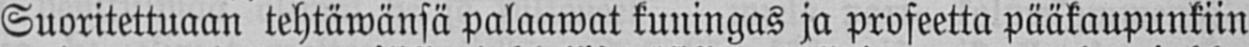Suoritettuaan tehtäwänsä palaawat kuningas ja profeetta pääkaupunkiin
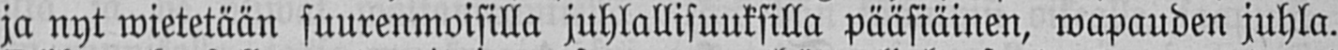ja nyt wietetään suurenmoisilla juhlallisuuksilla pääsiäinen, wapauden juhla.
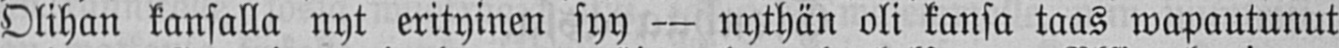Olihan kansalla nyt erityinen syy — nythän oli kansa taas wapautunut
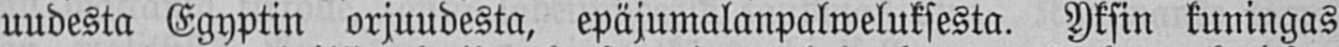uudesta Egyptin orjuudesta, epäjumalanpalweluksesta. Yksin kuningas
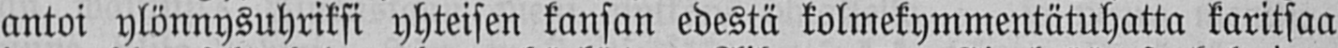antoi ylönnysuhriksi yhteisen kansan edestä kolmekymmentätuhatta karitsaa
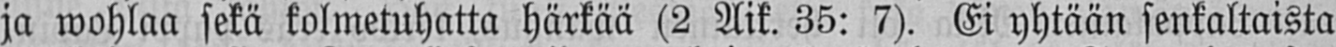ja wohlaa sekä kolmetuhatta härkää (2 Aik. 35: 7). Ei yhtään senkaltaista
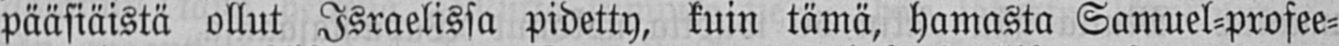pääsiäistä ollut Israelissa pidetty, kuin tämä, hamasta Samuel-profee-
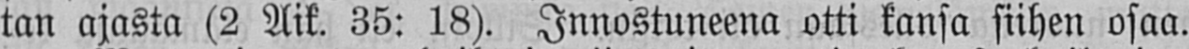tan ajasta (2 Aik. 35: 18). Innostuneena otti kansa siihen osaa.
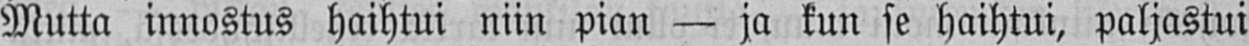Mutta innostus haihtui niin pian — ja kun se haihtui, paljastui
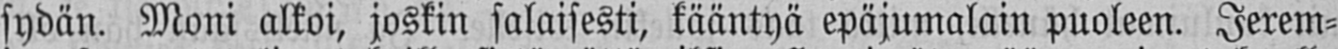sydän. Moni alkoi, joskin salaisesti, kääntyä epäjumalain puoleen. Jerem-
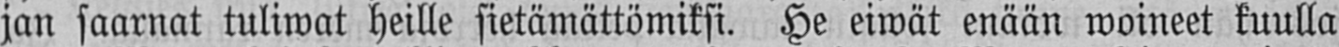jan saarnat tuliwat heille sietämättömiksi. He eiwät enään woineet kuulla
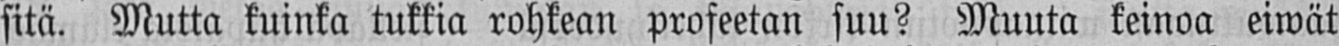sitä. Mutta kuinka tukkia rohkean profeetan suu? Muuta keinoa eiwät
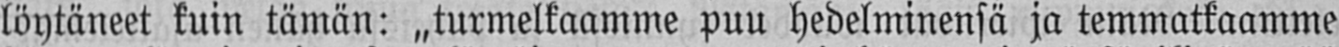löytäneet kuin tämän: „turmelkaamme puu hedelminensä ja temmatkaamme
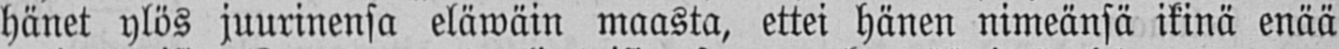hänet ylös juurinensa eläwäin maasta, ettei hänen nimeänsä ikinä enää
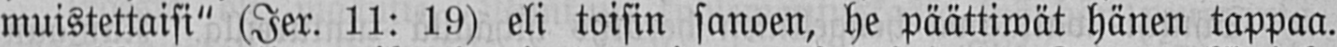muistettaisi" (Jer. 11: 19) eli toisin sanoen, he päättiwät hänen tappaa.
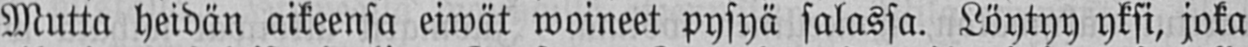Mutta heidän aikeensa eiwät woineet pysyä salassa. Löytyy yksi, joka
